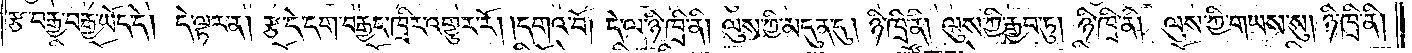རྩ་བརྒྱ་བརྒྱ་ཡོད་དེ། དེ་ལྟར་ན། རྩ་དེ་དག་བརྒྱད་ཁྲིར་འགྱུར་རོ། །དགའ་བོ། དེ་ལ་ཉི་ཁྲི་ནི། ལུས་ཀྱི་མདུན་དུ། ཉི་ཁྲི་ནི། ལུས་ཀྱི་རྒྱབ་ཏུ། ཉི་ཁྲི་ནི། ལུས་ཀྱི་གཡས་སུ། ཉི་ཁྲི་ནི།
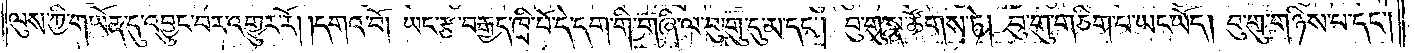ལུས་ཀྱི་གཡོན་དུ་འབྱུང་བར་འགྱུར་རོ། །དགའ་བོ། ཡང་རྩ་བརྒྱད་ཁྲི་པོ་དེ་དག་གི་གཞི་ལ་བུ་གུ་དུ་མ་དང༌། བུ་གུ་སྣ་ཚོགས་ཏེ། བུ་གུ་གཅིག་པ་ཡང་ཡོད། བུ་གུ་གཉིས་པ་དང༌།
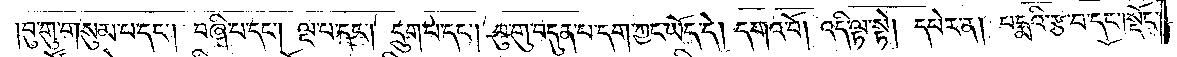བུ་གུ་གསུམ་པ་དང༌། བཞི་པ་དང༌། ལྔ་པ་དང༌། དྲུག་པ་དང༌། བུ་གུ་བདུན་པ་དག་ཀྱང་ཡོད་དེ། དགའ་བོ། འདི་ལྟ་སྟེ། དཔེར་ན། པདྨའི་རྩ་བ་དང༌། སྡོང་
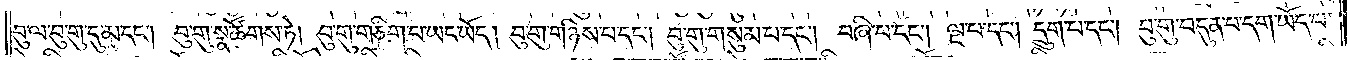བུ་ལ་བུ་གུ་དུ་མ་དང༌། བུ་གུ་སྣ་ཚོགས་ཏེ། བུ་གུ་གཅིག་པ་ཡང་ཡོད། བུ་གུ་གཉིས་པ་དང༌། བུ་གུ་གསུམ་པ་དང༌། བཞི་པ་དང༌། ལྔ་པ་དང༌། དྲུག་པ་དང༌། བུ་གུ་བདུན་པ་དག་ཡོད་པ་
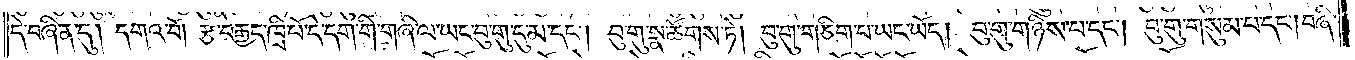དེ་བཞིན་དུ། དགའ་བོ། རྩ་བརྒྱད་ཁྲི་པོ་དེ་དག་གི་གཞི་ལ་ཡང་བུ་གུ་དུ་མ་དང༌། བུ་གུ་སྣ་ཚོགས་ཏེ། བུ་གུ་གཅིག་པ་ཡང་ཡོད། བུ་གུ་གཉིས་པ་དང༌། བུ་གུ་གསུམ་པ་དང༌། བཞི་
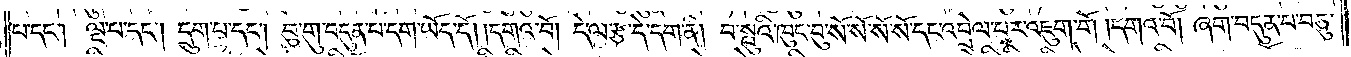པ་དང༌། ལྔ་པ་དང༌། དྲུག་པ་དང༌། བུ་གུ་བདུན་པ་དག་ཡོད་དོ། །དགའ་བོ། དེ་ལ་རྩ་དེ་དག་ནི། བ་སྤུའི་ཁུང་བུ་སོ་སོ་སོ་སོ་དང་འབྲེལ་བར་འཇུག་གོ །དགའ་བོ། ཞག་བདུན་པ་བཅུ་
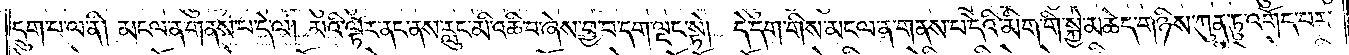དྲུག་པ་ལ་ནི། མངལ་ན་གནས་པ་དེ་ལ། མའི་ལྟོར་ནང་ནས་རླུང་མི་འཆི་བ་ཞེས་བྱ་བ་དག་ལྡང་སྟེ། དེ་དག་གིས་མངལ་ན་གནས་པ་དེའི་མིག་གི་སྐྱེ་མཆེད་གཉིས་ཀུན་ཏུ་འགོད་པར་
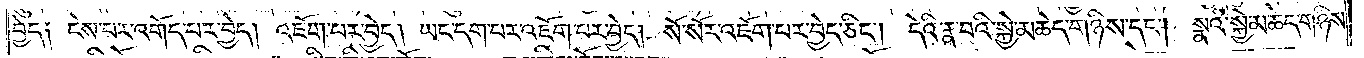བྱེད༑ ངེས་པར་འགོད་པར་བྱེད། འཇོག་པར་བྱེད། ཡང་དག་པར་འཇོག་པར་བྱེད། སོ་སོར་འཇོག་པར་བྱེད་ཅིང༌། དེའི་རྣ་བའི་སྐྱེ་མཆེད་གཉིས་དང༌། སྣའི་སྐྱེ་མཆེད་གཉིས་
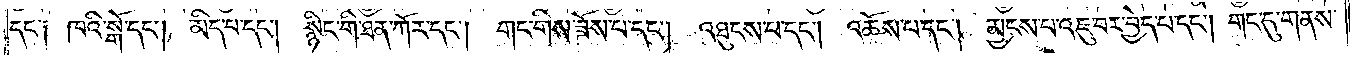དང༌། ཁའི་སྒོ་དང༌། མིད་པ་དང༌། སྙིང་གི་ཐན་ཀོར་དང༌། གང་གིས་ཟོས་པ་དང༌། འཐུངས་པ་དང༌། འཆོས་པ་དང༌། མྱངས་པ་འཇུ་བར་བྱེད་པ་དང༌། གང་དུ་གནས་
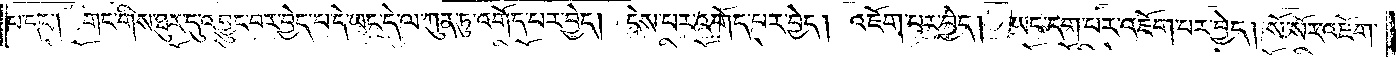པ་དང༌། གང་གིས་ཐུར་དུ་འབྱུང་བར་བྱེད་པ་དེ་ཡང་དེ་ལ་ཀུན་ཏུ་འགོད་པར་བྱེད། ངེས་པར་འགོད་པར་བྱེད། འཇོག་པར་བྱེད། ཡང་དག་པར་འཇོག་པར་བྱེད། སོ་སོར་འཇོག་
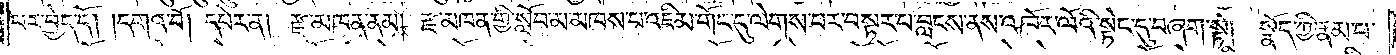པར་བྱེད་དོ། །དགའ་བོ། དཔེར་ན། རྫ་མཁན་ནམ། རྫ་མཁན་གྱི་སློབ་མ་མཁས་པ་འཇིམ་གོང་དུ་ལེགས་པར་བསྟར་པ་བླངས་ནས་འཁོར་ལོའི་སྟེང་དུ་བཞག་སྟེ། སྣོད་ཀྱི་རྣམ་པ་
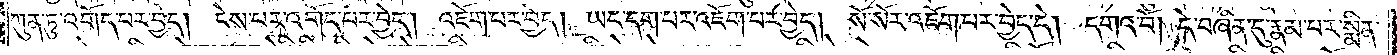ཀུན་ཏུ་འགོད་པར་བྱེད། ངེས་པར་འགོད་པར་བྱེད། འཇོག་པར་བྱེད། ཡང་དག་པར་འཇོག་པར་བྱེད། སོ་སོར་འཇོག་པར་བྱེད་དེ། དགའ་བོ། དེ་བཞིན་དུ་རྣམ་པར་སྨིན་
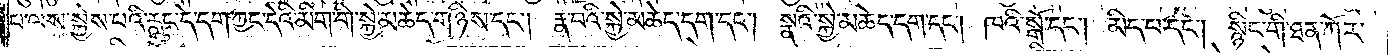པ་ལས་སྐྱེས་པའི་རླུང་དེ་དག་ཀྱང་དེའི་མིག་གི་སྐྱེ་མཆེད་གཉིས་དང༌། རྣ་བའི་སྐྱེ་མཆེད་དག་དང༌། སྣའི་སྐྱེ་མཆེད་དང༌། ཁའི་སྒོ་དང༌། མིད་པ་དང༌། སྙིང་གི་ཐན་ཀོར་
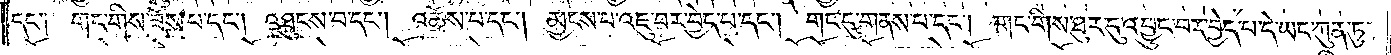དང་༑ གང་གིས་ཟོས་པ་དང༌། འཐུངས་བ་དང༌། འཆོས་པ་དང༌། མྱངས་པ་འཇུ་བར་བྱེད་པ་དང༌། གང་དུ་གནས་པ་དང༌། གང་གིས་ཐུར་དུ་འབྱུང་བར་བྱེད་པ་དེ་ཡང་ཀུན་ཏུ་
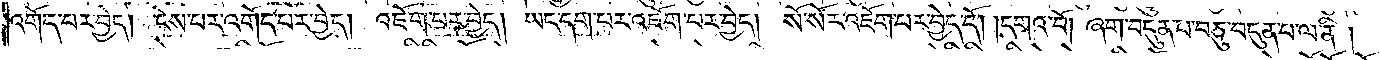འགོད་པར་བྱེད། ངེས་པར་འགྱེད་པར་བྱེད། འཇོག་པར་བྱེད། ཡང་དག་པར་འཇོག་པར་བྱེད། སོ་སོར་འཇོག་པར་བྱེད་དོ། །དགའ་བོ། ཞག་བདུན་པ་བཅུ་བདུན་པ་ལ་ནི།
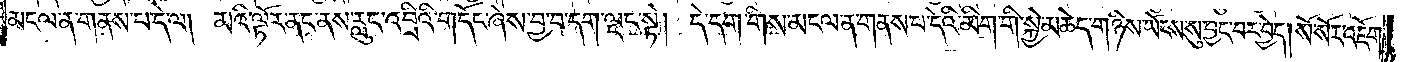མངལ་ན་གནས་པ་དེ་ལ། མའི་ལྟོར་ནང་ནས་རླུང་འབྲིའི་གདོང་ཞེས་བྱ་བ་དག་ལྡང་སྟེ། དེ་དག་གིས་མངལ་ན་གནས་པ་དེའི་མིག་གི་སྐྱེ་མཆེད་གཉིས་ཡོངས་སུ་བྱང་བར་བྱེད། སོ་སོར་འཇོག་
